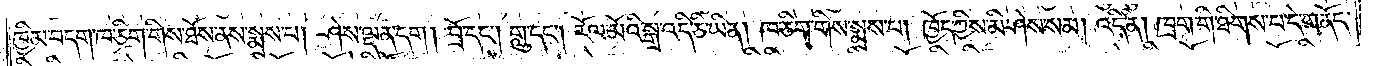ཁྱིམ་བདག་ཁ་ཅིག་གིས་ཐོས་ནས་སྨྲས་པ། ཤེས་ལྡན་དག། བྲོ་དང༌། གླུ་དང༌། རོལ་མོའི་སྒྲ་འདི་ཅི་ཡིན། ཁ་ཅིག་གིས་སྨྲས་པ། ཁྱོད་ཀྱིས་མི་ཤེས་སམ། འདི་ནི། ཁྲག་གི་ཐིགས་པ་དེ་གནོད་
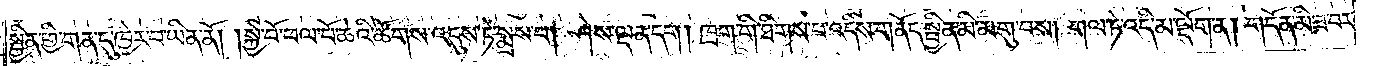སྦྱིན་གྱི་གན་དུ་ཁྱེར་བ་ཡིན་ནོ། །སྐྱེ་བོ་ཕལ་པོ་ཆེའི་ཚོགས་འདུས་ཏེ་སྨྲས་པ། ཤེས་ལྡན་དག། ཁྲག་གི་ཐིགས་པ་འདིས་གནོད་སྦྱིན་མི་མགུ་བས། གལ་ཏེ་འདི་མ་ལྡོག་ན། གདོན་མི་ཟ་བར་
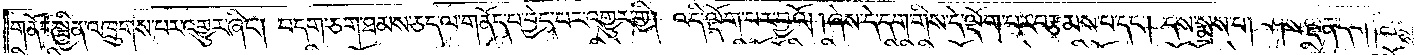གནོད་སྦྱིན་འཁྲུགས་པར་འགྱུར་ཞིང༌། བདག་ཅག་ཐམས་ཅད་ལ་གནོད་པ་བྱེད་པར་འགྱུར་གྱི། འདི་ལྡོག་པར་བྱའོ། །ཞེས་དེ་དག་གིས་དེ་ལྡོག་པར་བརྩམས་པ་དང༌། དེས་སྨྲས་པ། ཤེས་ལྡན་དག །ཚོགས་
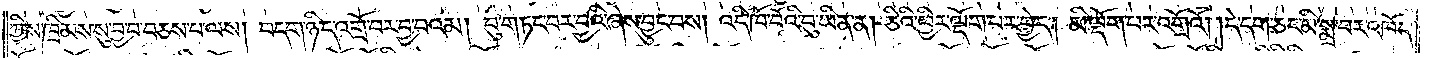ཀྱིས་ཁྲིམས་སུ་བྱ་བ་བཅས་པ་ལས། བདག་ཉིད་འགྲོ་བར་བྱ་བའམ། བུ་གཏང་བར་བྱའི་ཞེས་བྱུང་བས། འདི་ཁོ་བོའི་བུ་ཡིན་ན། ཅིའི་ཕྱིར་ལྡོག་པར་བྱེད། མི་ལྡོག་པར་འགྲོའོ། །དེ་དག་ཅང་མི་སྨྲ་བར་འཁོད་
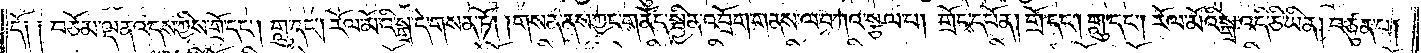དོ༑ ༑བཅོམ་ལྡན་འདས་ཀྱིས་གྲོ་དང༌། གླུ་དང༌། རོལ་མོའི་སྒྲ་དེ་གསན་ཏོ། །གསན་ནས་ཀྱང་གནོད་སྦྱིན་འབྲོག་གནས་ལ་བཀའ་སྩལ་པ། གྲོང་དཔོན། གྲོ་དང༌། གླུ་དང༌། རོལ་མོའི་སྒྲ་འདི་ཅི་ཡིན། བཙུན་པ།
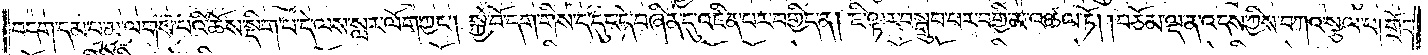བདག་དམ་པ་མ་ལགས་པའི་ཆོས་སྡིག་པ་དེ་ལས་སླར་ལོག་ཀྱང༌། སྐྱེ་བོ་དག་གིས་ད་དུང་དེ་བཞིན་དུ་འཛིན་པར་བགྱིད་ན། ཇི་ལྟར་བསྒྲུབ་པར་བགྱི་མ་འཚལ་ཏོ། །བཅོམ་ལྡན་འདས་ཀྱིས་བཀའ་སྩལ་པ། གྲོང་
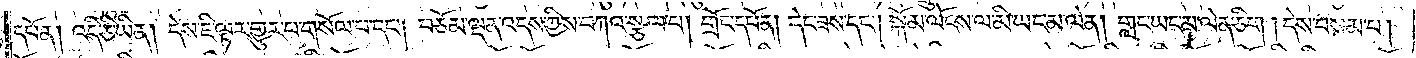དཔོན། འདི་ཅི་ཡིན། དེས་ཇི་ལྟར་གྱུར་པ་གསོལ་པ་དང༌། བཅོམ་ལྡན་འདས་ཀྱིས་བཀའ་སྩལ་པ། གྲོང་དཔོན། དེང་ཟས་དང༌། སྐོམ་ལོངས་ལ་མི་ཡང་མ་ལེན། གླང་ཡང་མ་ལེན་ཅིག །དེས་བསམ་པ།
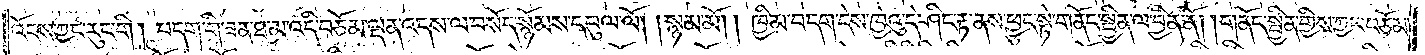འོངས་ཀྱང་རུང་གི། བདག་གི་ཟན་ཐ་མ་འདི་བཅོམ་ལྡན་འདས་ལ་བསོད་སྙོམས་དབུལ་ལོ། །སྙམ་མོ། །ཁྱིམ་བདག་དེས་ཁྱེའུ་དེ་ཤིང་རྟ་ནས་ཕྱུང་སྟེ་གནོད་སྦྱིན་ལ་བྱིན་ནོ། །གནོད་སྦྱིན་གྱིས་ཀྱང་བཅོམ་
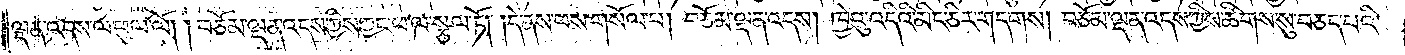ལྡན་འདས་ལ་ཕུལ་ལོ། །བཅོམ་ལྡན་འདས་ཀྱིས་ཀྱང་ཕ་ལ་སྩལ་ཏོ། །དེ་ནས་ཕས་གསོལ་པ། བཅོམ་ལྡན་འདས། ཁྱེའུ་འདིའི་མིང་ཅིར་གདགས། བཅོམ་ལྡན་འདས་ཀྱིས་ཚིགས་སུ་བཅད་པའི་
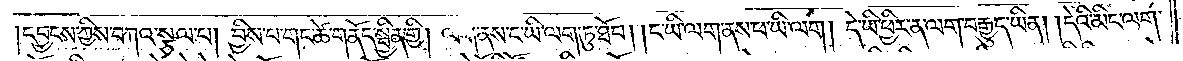།དབྱངས་ཀྱིས་བཀའ་སྩལ་པ། བྱིས་པ་གང་ཚེ་གནོད་སྦྱིན་གྱི། ལག་ནས་ང་ཡི་ལག་ཏུ་ཐོབ། །ང་ཡི་ལག་ནས་ཕ་ཡི་ལག། དེ་ཡི་ཕྱིར་ན་ལག་བརྒྱུད་ཡིན། །དེའི་མིང་ལག་
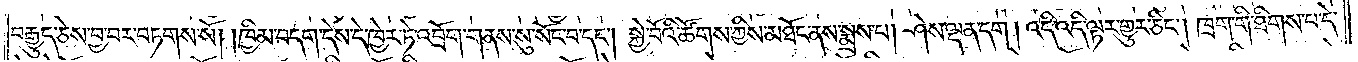བརྒྱུད་ཅེས་བྱ་བར་བཏགས་སོ། །ཁྱིམ་བདག་དེས་དེ་ཁྱེར་ཏེ་འབྲོག་གནས་སུ་སོང་བ་དང༌། སྐྱེ་བོའི་ཚོགས་ཀྱིས་མཐོང་ནས་སྨྲས་པ། ཤེས་ལྡན་དག །འདི་འདི་ལྟར་གྱུར་ཅིང༌། ཁྲག་གི་ཐིགས་པ་དེ་
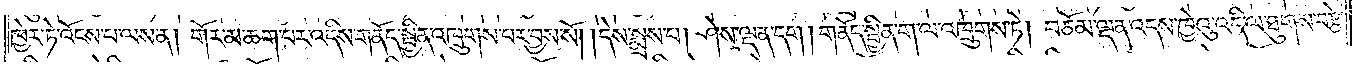ཁྱེར་ཏེ་འོངས་པ་ལས་ན། གོར་མ་ཆག་པར་འདིས་གནོད་སྦྱིན་འཁྲུགས་པར་བྱས་སོ། །དེས་སྨྲས་པ། ཤེས་ལྡན་དག །གནོད་སྦྱིན་ག་ལ་འཁྲུགས་ཏེ། བཅོམ་ལྡན་འདས་ཁྱེའུ་འདི་ལ་ཐུགས་བརྩེ་
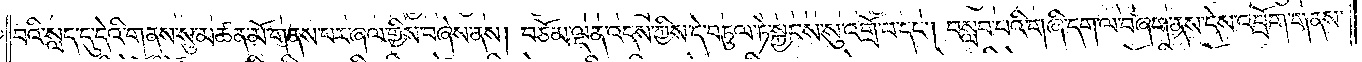བའི་སླད་དུ་དེའི་གནས་སུ་མཚན་མོ་གནས་པར་ཞལ་གྱིས་བཞེས་ནས། བཅོམ་ལྡན་འདས་ཀྱིས་དེ་བཏུལ་ཏེ་སྐྱབས་སུ་འགྲོ་བ་དང༌། བསླབ་པའི་གཞི་དག་ལ་བཞག་ནས་དེས་འབྲོག་གནས་
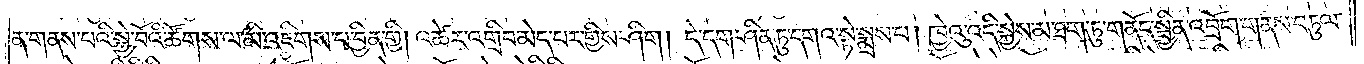ན་གནས་པའི་སྐྱེ་བོའི་ཚོགས་ལ་མི་འཇིགས་པ་བྱིན་གྱི། འཚེར་འགྲིབ་མེད་པར་གྱིས་ཤིག །དེ་དག་ཤིན་ཏུ་དགའ་སྟེ་སྨྲས་པ། ཁྱེའུ་འདི་སྐྱེས་མ་ཐག་ཏུ་གནོད་སྦྱིན་འབྲོག་གནས་བཏུལ་
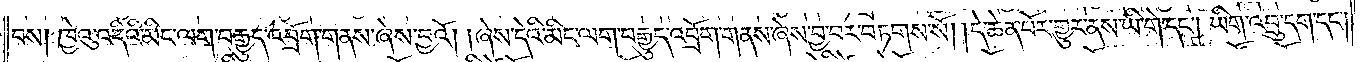བས། ཁྱེའུ་འདིའི་མིང་ལག་བརྒྱུད་འབྲོག་གནས་ཞེས་བྱའོ། །ཞེས་དེའི་མིང་ལག་བརྒྱུད་འབྲོག་གནས་ཞེས་བྱ་བར་བཏགས་སོ། །དེ་ཆེན་པོར་གྱུར་ནས་ཡི་གེ་དང༌། ཡིག་འབྲུ་དག་དང༌།
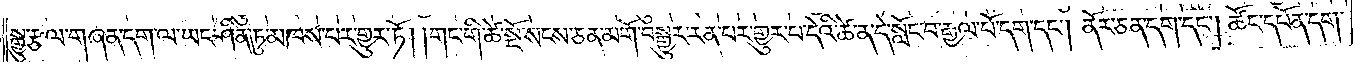སྒྱུ་རྩལ་གཞན་དག་ལ་ཡང་ཤིན་ཏུ་མཁས་པར་གྱུར་ཏོ། །གང་གི་ཚེ་སྔོ་སངས་ཅན་མགོ་བསྒྱུར་རན་པར་གྱུར་པ་དེའི་ཚེ་ན་དེ་སློང་བ་རྒྱལ་པོ་དག་དང༌། ནོར་ཅན་དག་དང༌། ཚོང་དཔོན་དག་
